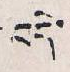བདེ་
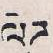ལེཊ
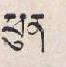ཕུན
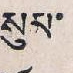སུམ་
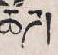ཚོཊ།
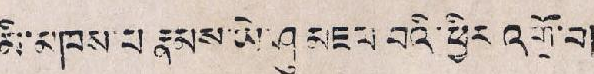མི་མཁས་པ རྣམས་ཡེ་ཤུ མཇལ་བའི་ཕྱིར་འགྲོ་བ།
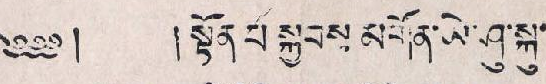༄༅༅། །སྟོན་པ་སྐྱབས་མགོན་ཡེ་ཤུ་སྐུ་
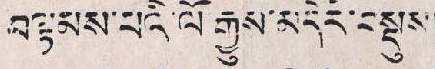བལྟམས་པའི་ལོ་རྒྱུས་མདོར་བསྡུས།
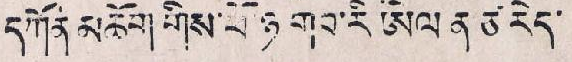དཀོན མཆོག གིས་ཕོ་ཉ གབ་རི་ཨེལ ན ཙ་རེད་
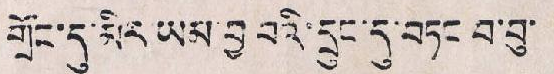གྲོང་དུ་མིར་ཡམ་བྱ བའི་དྲུང་དུ་བཏང བ་བུ་
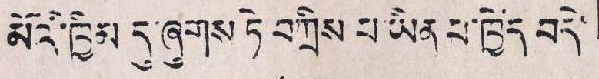མོའི་ཁྱིམ་དུ་ཞུགས་ཏེ་བཀྲིས་པ་ཡིན་པ་ཁྱེད བདེ་
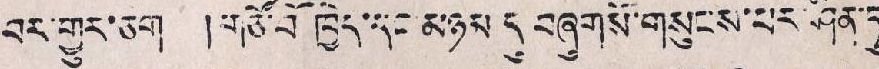བར་གྱུར་ཅག །གཙོ་བོ ཁྱེད་དང་མཉམ་དུ་བཞུགསོ་གསུངས་པར་ཤིན་ཏུ་
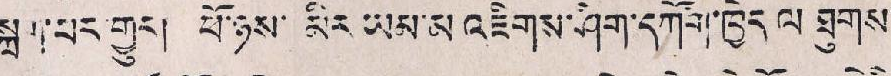སྐྲག་པར་གྱུར། ཕོ་ཉས་ མིར་ཡམ་མ འཇིགས་ཤིག་དཀོག་ཁྱེར ལ ཐུགས་
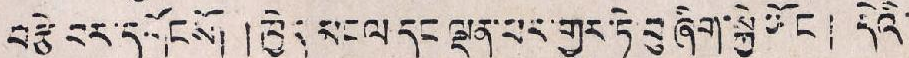བརྩེ་བར་དགོངསོ། །ཁྱེད་མངལ་དང་ལྡན་པར་གྱུར་ཏེ་བུ་ཞིག་སྐྱེ་ཡོང་ དེའི་
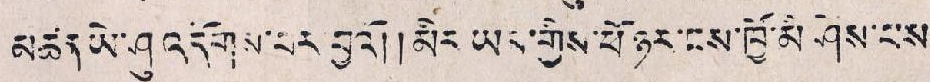མཚན་ཡེ་ཤུ་འདོགས་པར་བྱའོ། །མིར་ཡང་གྱིས་ཕོ་ཉར་ངས་ཁྱོ་མི ཤེས་པས་
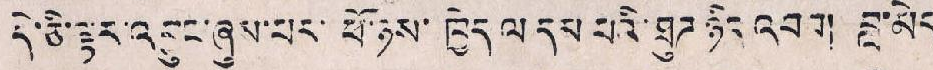དེ་ཅི་ལྟར་འབྱུང་ཞུས་པར་ཕོ་ཉས་ཁྱེད་ལ་དམ་པའི་ཐུཊ་ཉིད་འབབ། བླ་མེད་
